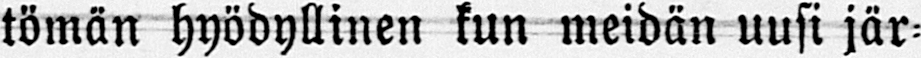tömän hyödyllinen kun meidän uusi jär-
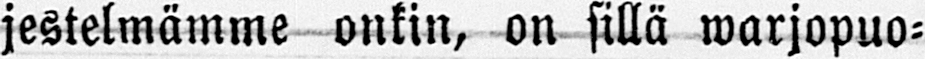jestelmämme onkin, on sillä warjopuo-
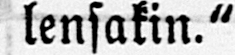lensakin."
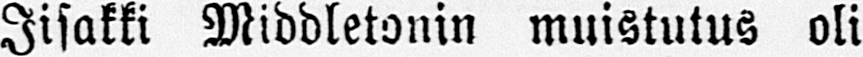Iisakki Middletonin muistutus oli
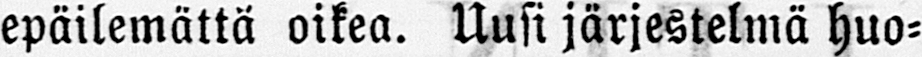epäilemättä oikea. Uusi järjestelmä huo-
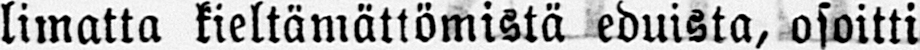limatta kieltämättömistä eduista, osoitti
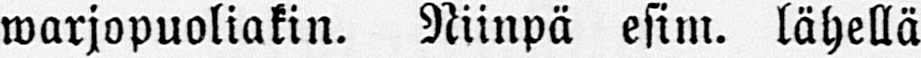warjopuoliakin. Niinpä esim. lähellä
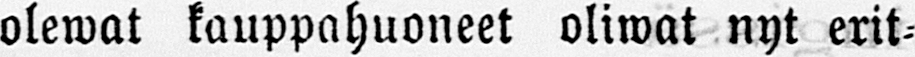olewat kauppahuoneet oliwat nyt erit-
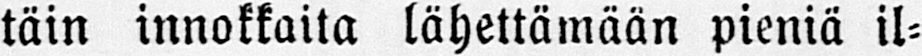täin innokkaita lähettämään pieniä il-
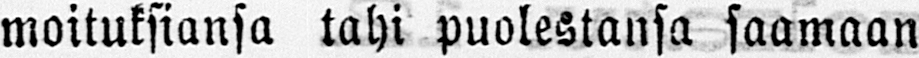moituksiansa tahi puolestansa saamaan
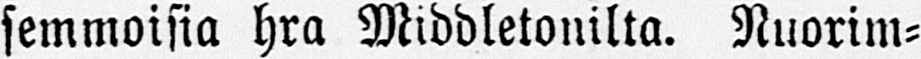semmoisia hra Middletonilta. Nuorim-
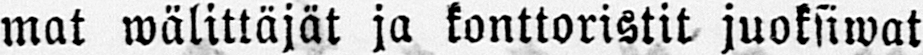mat wälittäjät ja konttoristit juoksiwat
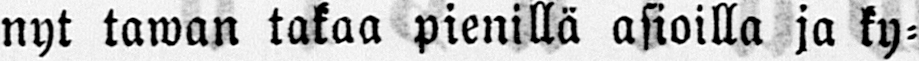nyt tawan takaa pienillä asioilla ja ky-
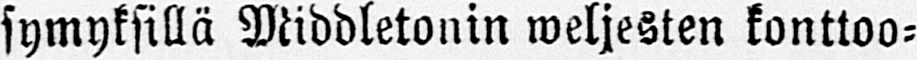symyksillä Middletonin weljesten konttoo-
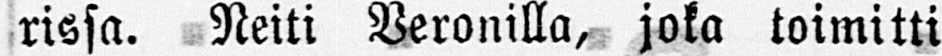rissa. Neiti Veronilla, joka toimitti
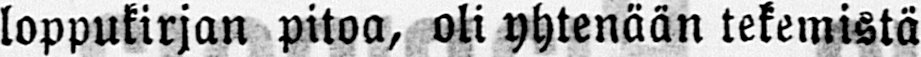loppukirjan pitoa, oli yhtenään tekemistä
